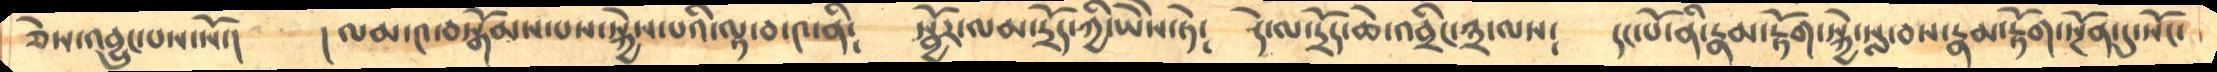ཅེས་འབྱུང་པས་སོ་།     །ལམ་༤་བསྒོམས་པས་སྐྱེས་པའི་ལྟ་བ་༤་ནི༴    སྦྱོར་ལམ་དྲོད་ཀྱི་ཡཻས་ཏེ༴   དེ་ལ་དྲོད་ཆེ་འབྲིང་༣་ལས༴   དང་པོ་ནི་རྣམ་རྟོག་སྐྱེ་སླ་བས་རྣམ་རྟོག་སྔོན་དུ་སོང་
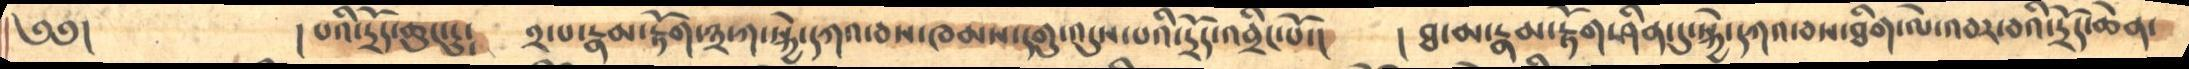༄༅།          །པའི་དྲོད་ཆུང་ངུ༴     ༢་པ་རྣམ་རྟོག་༣་ཀ་སྐྱེ་དཀའ་བས་ཁམས་དགུ་འདུས་པའི་དྲོད་འབྲིང་པོ་།    །ཐ་མ་རྣམ་རྟོག་ཤིན་དུ་སྐྱེ་དཀའ་བས་ཐིག་ལེ་འབར་བའི་དྲོད་ཆེན་
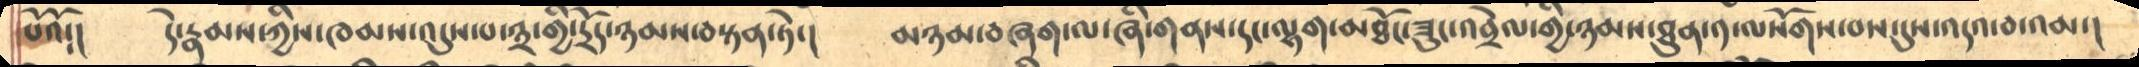པོའོ༴།       དེ་རྣམས་ཀྱིས་ཁམས་འདུས་པ་༣་གྱི་དྲོད་ཉམས་བསྟན་ཏེ་།     མཉམ་བཞག་ལ་ཞི་གནས་དང་ལྷག་མཐོང་ཟུང་འབྲེལ་གྱི་ཉམས་ཐུན་༡་ལསོགས་བས་དུས་འདའ་བ་འམ་།
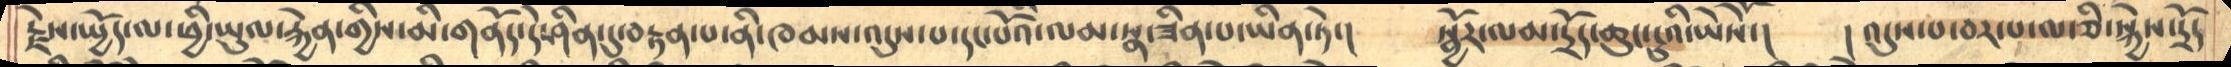རྗེས་སྤྱོད་ལ་ཕྱི་ཡུལ་རྐྱེན་གྱིས་མི་གནོད་དེ་ཤིན་དུ་བརྟན་པ་ནི་ཁམས་འདུས་པ་དང་པོའི་ལམ་སྣ་ཟིན་པ་ཡིན་ཏེ་།    སྦྱོར་ལམ་དྲོད་ཆུང་ངུའི་ཡཻསོ་།     །འདུས་པ་བར་པ་ལ་ཅི་སྐྱེས་དྲོད
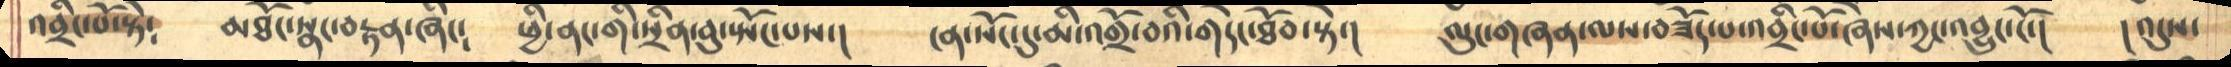འབྲིང་པོ་སྟེ༴     མཐོང་སྣང་བརྟན་ཞིང༴   ཕྱི་ནང་གི་སྲིན་བུ་སྤོང་པས་།    ངན་སོང་དུ་མི་འགྲོ་བའི་གདེང་ཐོབ་སྟེ་།    ལུང་གཞན་ལས་བཟོད་པ་འབྲིང་པོ་ཞེས་ཀྱང་འབྱུང་ངོ་།     །འདུས་
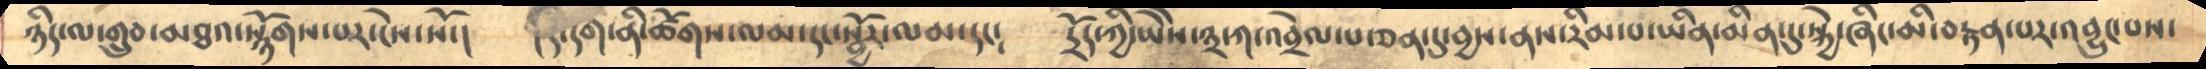ཉིད་ལ་གྲུབ་མཐའ་སྙོགས་པར་ངེས་སོ་།    །དེ་དག་ནི་ཚོགས་ལམ་དང་སྦྱོར་ལམ་དང༴     དྲོད་ཀྱི་ཡཻས་༣་ཀ་འབྲེལ་པ་ཅན་དུ་བྱས་ནས་རིམ་པ་ཡིན་མིན་དུ་སྐྱེ་ཞིང་མི་བརྟན་པར་འབྱུང་པས་
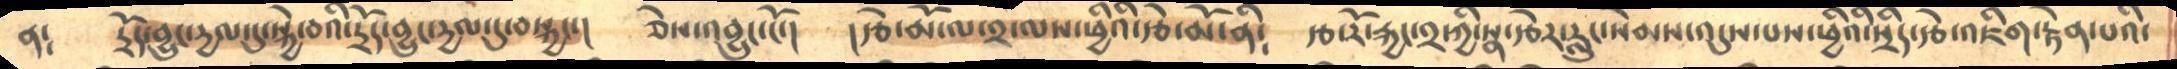ན༴    དྲོད་བྱུང་དྱལ་དུ་སྐྱེ་བའི་དྲོད་བྱུང་དྱལ་དུ་བསྐྱང་།    ཅེས་འབྱུང་ངོ་།   །རྩེ་མོ་ལ་༢་ལས་ཕྱིའི་རྩེ་མོ་ནི༴   རྩ་རོ་རྐྱང་༢་ཀྱི་སྣ་རྩེར་རླུང་སེམས་འདུས་པས་ཕྱིའི་སྲིད་རྩེ་འཇིག་རྟེན་པའི་
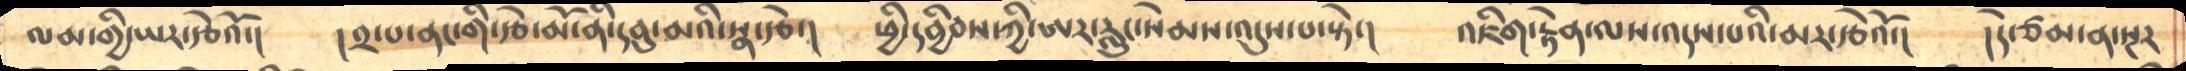ལམ་གྱི་ཡར་རྩེའོ་།     །༢་པ་ནང་གི་རྩེ་མོ་ནི་དབུ་མའི་སྣ་རྩེ་།   ཕྱི་དབྱིབས་ཀྱི་ཨར་རླུང་སེམས་འདུས་པ་སྟེ་།   འཇིག་རྟེན་ལས་འདས་པའི་མར་རྩའོ་།   །དེ་ཙམ་ན་སྔར
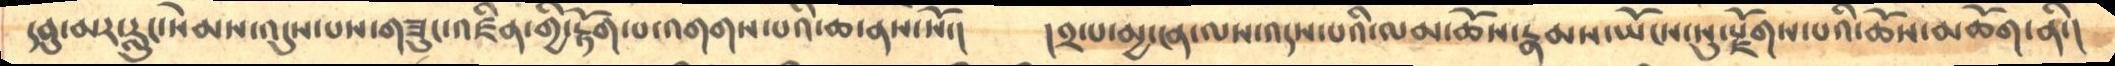དབུ་མར་རླུང་སེམས་འདུས་པས་གཟུང་འཛིན་གྱི་རྟོག་པ་འགགས་པའི་ཆ་ནས་སོ་།   །༢་པ་མྱ་ངན་ལས་འདས་པའི་ལམ་ཆོས་རྣམས་ཡོངས་སུ་རྫོགས་པའི་ཆོས་མཆོག་ནི་།
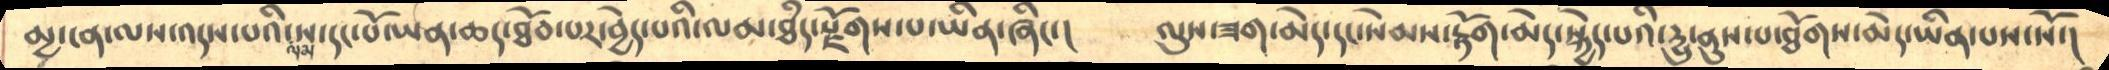མྱ་ངན་ལས་འདས་པའི་ལམ་ས་དང་པོ་ཡན་ཆད་ཐོབ་པར་བྱེད་པའི་ལམ་ཐཾད་རྫོགས་པ་ཡིན་ཞིང་།    ལུས་ཟག་མེད་དང་སེམས་རྟོག་མེད་སྐྱེད་པའི་དྱུ་ནུས་པ་ཐོགས་མེད་ཡིན་པས་སོ་།
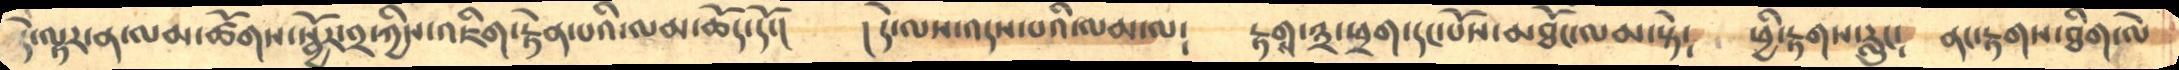དེ་ལྟར་ན་ལམ་ཚོགས་སྦྱོར་༢་ཀྱིས་འཇིག་རྟེན་པའི་ལམ་ཆོད་དོ་།    །དེ་ལས་འདས་པའི་ལམ་ལ༴    རྟགས་༣་ཕྲག་དང་པོས་མཐོང་ལམ་སྟེ༴   ཕྱི་རྟགས་རླུང༴  ནང་རྟགས་ཐིག་ལེ
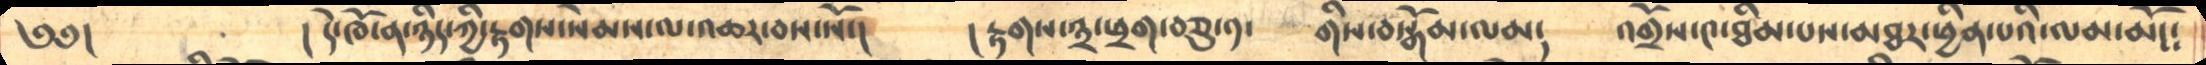༄༅།           །དེ་ཁོ་ན་ཉིད་ཀྱི་རྟགས་སེམས་ལ་འཆར་བས་སོ་།   །རྟགས་༣་ཕྲག་བཅུ་༡་    གིས་བསྒོམ་ལམ༴   འགྲོས་༤་ཐིམ་པས་མཐར་ཕྱིན་པའི་ལམ་མོད༴
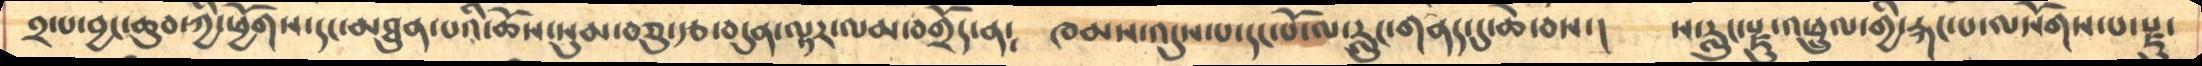༢་པ་བྱང་ཆུབ་ཀྱི་ཕྱོགས་དང་མཐུན་པའི་ཆོས་སུམ་བཅུ་རྩ་བདུན་ལྟར་ལམ་བགྲོད་ན༴    ཁམས་འདུས་པ་དང་པོ་ལ་རླུང་གནད་དུ་ཆེ་བཔ་།   ས་རླུང་རྫུ་འཕྲུལ་གྱི་རྐང་པ་ལསོགས་པ་རྫུ་
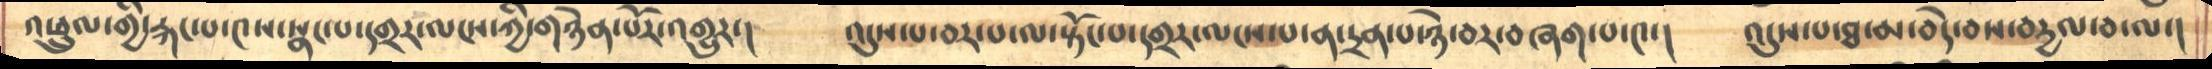འཕྲུལ་གྱི་རྐང་པ་༤ས་སྣང་པ་དགྲར་ལངས་ཀྱི་གཉེན་པོར་འགྱུར་།    འདུས་པ་བར་པ་ལ་སྟོང་པ་དགྲར་ལངས་པ་ན་དྲན་པ་ཉེ་བར་བཞག་པ་༤་།   འདུས་པ་ཐ་མ་བདེ་བས་བརྱལ་བ་ལ་།
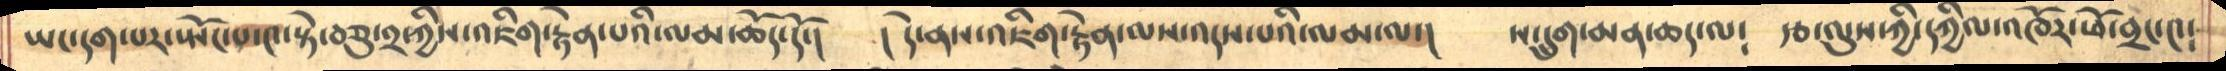ཡང་དག་པར་སྤོང་པ་༤་སྟེ་བཅུ་༢་ཀྱིས་འཇིག་རྟེན་པའི་ལམ་ཆོད་དོ་།    ། དེ་ནས་འཇིག་རྟེན་ལས་འདས་པའི་ལམ་ལ་།   ས་དྲུག་མན་ཆད་ལ༴   རྩ་ལུས་ཀྱི་དཀྱིལ་འཁོར་ཕོ་བྲང་༤༴
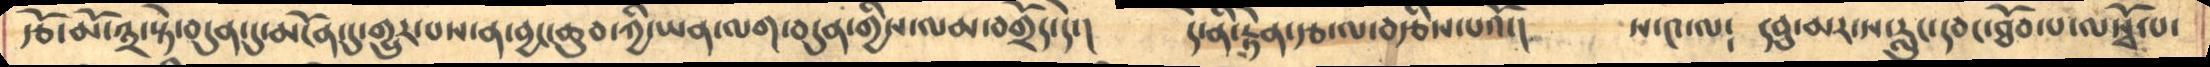རྩོ་མོ་༣་སྟེ་བདུན་དུ་མངོན་དུ་གྱུར་པས་ན་བྱང་ཆུབ་ཀྱི་ཡན་ལག་བདུན་གྱིས་ལམ་བགྲོད་དེ་།    དེ་ནི་རྟེན་རྩ་ལ་བརྩིས་པའོ་།    ས་༤་ལ༴   དབུ་མར་ས་རླུང་དབང་ཐོབ་པ་ལསྭོ་པ་
